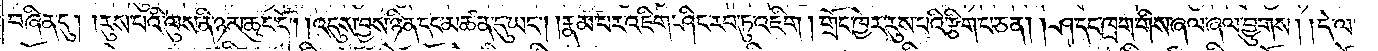བཞིན་དུ། །རུས་པའི་ལུས་ནི་ཉམ་ཆུང་ངོ༌། །འདུས་བྱས་ཉིན་དང་མཚན་དུ་ཡང༌། །རྣམ་པར་འཇིག་ཤིང་རབ་ཏུ་འཇིག །གྲོང་ཁྱེར་རུས་པའི་རྩིག་པ་ཅན། །ཤ་དང་ཁྲག་གིས་ཞལ་ཞལ་བྱུགས། །དེ་ལ་
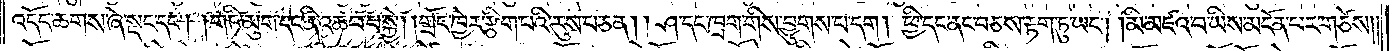འདོད་ཆགས་ཞེ་སྡང་དང༌། གཏི་མུག་དང་ནི་འཆབ་པ་སྐྱེ། །གྲོང་ཁྱེར་རྩིག་པའི་རུས་པ་ཅན། །ཤ་དང་ཁྲག་གིས་བྱུགས་པ་དག །ཕྱི་དང་ནང་བཅས་རྟག་ཏུ་ཡང༌། །མི་མཛའ་བ་ཡིས་མངོན་པར་གཙེས༎
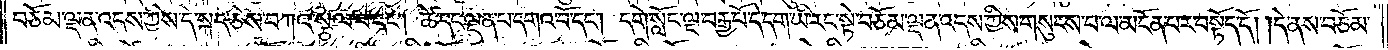བཅོམ་ལྡན་འདས་ཀྱིས་དེ་སྐད་ཅེས་བཀའ་སྩལ་པ་དང༌། ཚེ་དང་ལྡན་པ་དགའ་བོ་དང༌། དགེ་སློང་ལྔ་བརྒྱ་པོ་དེ་དག་ཡི་རང་སྟེ་བཅོམ་ལྡན་འདས་ཀྱིས་གསུངས་པ་ལ་མངོན་པར་བསྟོད་དོ། །དེ་ནས་བཅོམ་
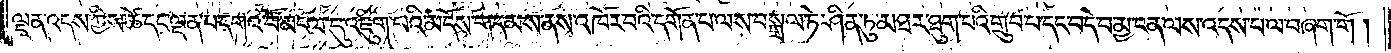ལྡན་འདས་ཀྱིས་ཚེ་དང་ལྡན་པ་དགའ་བོ་མངལ་དུ་འཇུག་པའི་མདོས་གདམས་ནས་འཁོར་བའི་དགོན་པ་ལས་བསྒྲལ་ཏེ་ཤིན་ཏུ་མཐར་ཐུག་པའི་གྲུབ་པ་དང་བདེ་བ་མྱ་ངན་ལས་འདས་པ་ལ་བཞག་གོ །
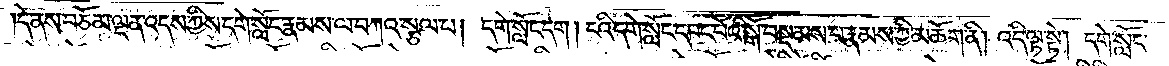དེ་ནས་བཅོམ་ལྡན་འདས་ཀྱིས་དགེ་སློང་རྣམས་ལ་བཀའ་སྩལ་པ། དགེ་སློང་དག །ངའི་དགེ་སློང་དབང་པོའི་སྒོ་བསྡམས་པ་རྣམས་ཀྱི་མཆོག་ནི། འདི་ལྟ་སྟེ། དགེ་སློང་
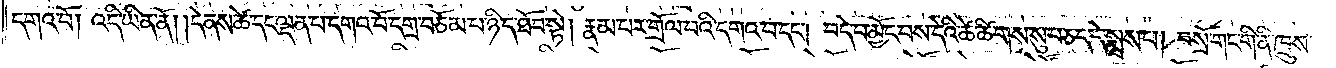དགའ་བོ། འདི་ཡིན་ནོ། །དེ་ནས་ཚེ་དང་ལྡན་པ་དགའ་བོ་དགྲ་བཅོམ་པ་ཉིད་ཐོབ་སྟེ། རྣམ་པར་གྲོལ་བའི་དགའ་བ་དང༌། བདེ་བ་མྱོང་བས་དེའི་ཚེ་ཚིགས་སུ་བཅད་དེ་སྨྲས་པ། བསྲོ་གང་གི་ནི་ཁྲུས་
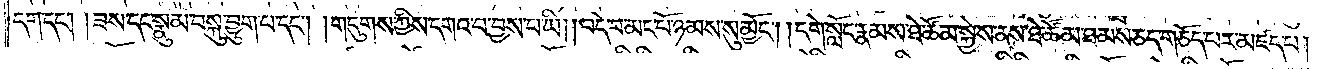དག་དང༌། །ཟས་དང་སྣུམ་བསྐུ་བྱུག་པ་དང༌། །གདུགས་ཀྱིས་དགའ་བ་བྱས་པ་ཡི། །བདེ་བ་མང་པོ་ཉམས་སུ་མྱོང༌། །དགེ་སློང་རྣམས་ཐེ་ཚོམ་སྐྱེས་ནས་ཐེ་ཚོམ་ཐམས་ཅད་གཅོད་པར་མཛད་པ།
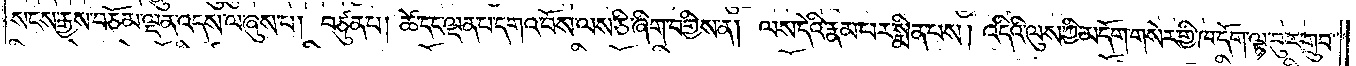སངས་རྒྱས་བཅོམ་ལྡན་འདས་ལ་ཞུས་པ། བཙུན་པ། ཚེ་དང་ལྡན་པ་དགའ་བོས་ལས་ཅི་ཞིག་བགྱིས་ན། ལས་དེའི་རྣམ་པར་སྨིན་པས། འདིའི་ལུས་ཀྱི་མདོག་གསེར་གྱི་ཁ་དོག་ལྟ་བུར་གྲུབ་
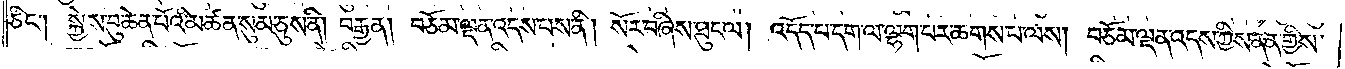ཅིང༌། སྐྱེས་བུ་ཆེན་པོའི་མཚན་སུམ་ཅུས་ནི། བརྒྱན། བཅོམ་ལྡན་འདས་པས་ནི། སོར་བཞིས་ཐུང་ལ། འདོད་པ་དག་ལ་ལྷག་པར་ཆགས་པ་ལས། བཅོམ་ལྡན་འདས་ཀྱིས་ནན་གྱིས་
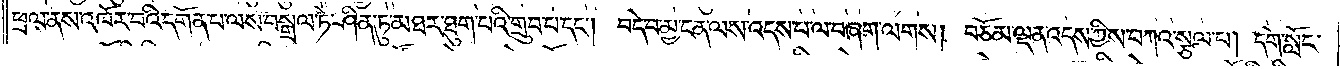ཕྲལ་ནས་འཁོར་བའི་དགོན་པ་ལས་བསྒྲལ་ཏེ་ཤིན་ཏུ་མཐར་ཐུག་པའི་གྲུབ་པ་དང༌། བདེ་བ་མྱ་ངན་ལས་འདས་པ་ལ་བཞག་ལགས། བཅོམ་ལྡན་འདས་ཀྱིས་བཀའ་སྩལ་པ། དགེ་སློང་
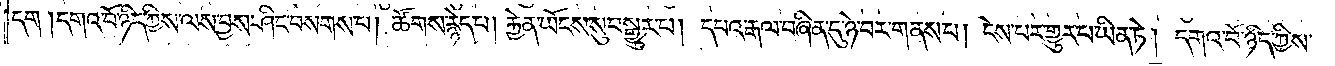དག །དགའ་བོ་ཉིད་ཀྱིས་ལས་བྱས་ཤིང་བསགས་པ། ཚོགས་རྙེད་པ། རྐྱེན་ཡོངས་སུ་བསྒྱུར་པ། དཔའ་རྒལ་བཞིན་དུ་ཉེ་བར་གནས་པ། ངེས་པར་གྱུར་པ་ཡིན་ཏེ། དགའ་བོ་ཉིད་ཀྱིས་
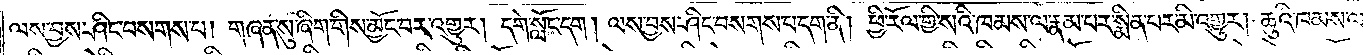ལས་བྱས་ཤིང་བསགས་པ། གཞན་སུ་ཞིག་གིས་མྱོང་བར་འགྱུར། དགེ་སློང་དག། ལས་བྱས་ཤིང་བསགས་པ་དག་ནི། ཕྱི་རོལ་གྱི་སའི་ཁམས་ལ་རྣམ་པར་སྨིན་པར་མི་འགྱུར། ཆུའི་ཁམས་ལ་
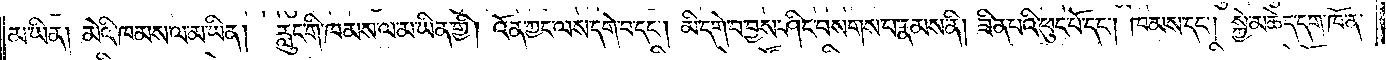མ་ཡིན། མེའི་ཁམས་ལ་མ་ཡིན། རླུང་གི་ཁམས་ལ་མ་ཡིན་གྱི། འོན་ཀྱང་ལས་དགེ་བ་དང༌། མི་དགེ་བ་བྱས་ཤིང་བསགས་པ་རྣམས་ནི། ཟིན་པའི་ཕུང་པོ་དང༌། ཁམས་དང༌། སྐྱེ་མཆེད་དག་ཁོ་ན་
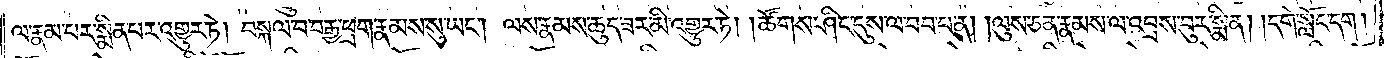ལ་རྣམ་པར་སྨིན་པར་འགྱུར་ཏེ། བསྐལ་བ་བརྒྱ་ཕྲག་རྣམས་སུ་ཡང༌། ལས་རྣམས་ཆུད་ཟར་མི་འགྱུར་ཏེ། །ཚོགས་ཤིང་དུས་ལ་བབ་པ་ན། །ལུས་ཅན་རྣམས་ལ་འབྲས་བུར་སྨིན། །དགེ་སློང་དག།
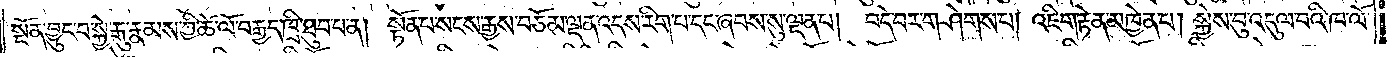སྔོན་བྱུང་བ་སྐྱེ་རྒུ་རྣམས་ཀྱི་ཚེ་ལོ་བརྒྱད་ཁྲི་ཐུབ་པ་ན། སྟོན་པ་སངས་རྒྱས་བཅོམ་ལྡན་འདས་རིག་པ་དང་ཞབས་སུ་ལྡན་པ། བདེ་བར་གཤེགས་པ། འཇིག་རྟེན་མཁྱེན་པ། སྐྱེས་བུ་འདུལ་བའི་ཁ་ལོ་
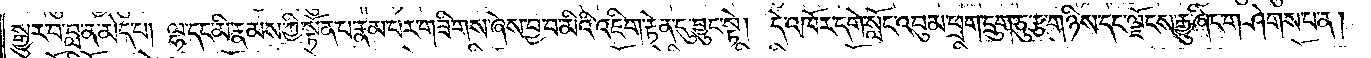སྒྱུར་བ་བླ་ན་མེད་པ། ལྷ་དང་མི་རྣམས་ཀྱི་སྟོན་པ་རྣམ་པར་གཟིགས་ཞེས་བྱ་བ་མིའི་འཇིག་རྟེན་དུ་བྱུང་སྟེ། དེ་འཁོར་དགེ་སློང་འབུམ་ཕྲག་དྲུག་ཅུ་རྩ་གཉིས་དང་ལྗོངས་རྒྱུ་ཞིང་གཤེགས་པ་ན།
